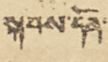སྐབས་དོན་
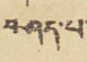བཤད་པ་
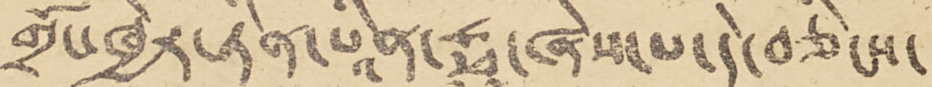གྲོང་ཁྱེར་ཏིན་པཱིན་ཧྥུ་ཞེས་པ་དེ་བཅིངས་
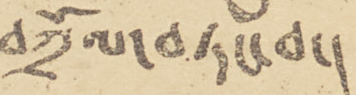བཀྲོལ་བཏང་བ་།
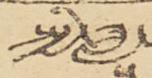སྤྱི་ཟླ་
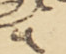༥
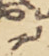༧
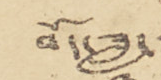བོད་ཟླ་
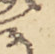༣
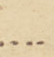་་་་
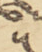༥
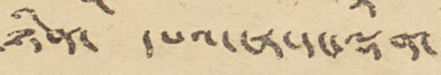ཉིན་ དཔའ་ངར་དང་ལྡན་
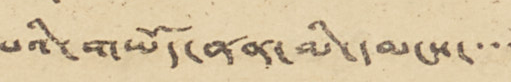པའི་གཡོད་ནན་མི་དམངས་་་་
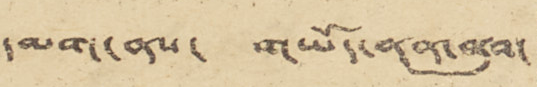དམག་ནས་ གཡོད་ནན་ནུབ་
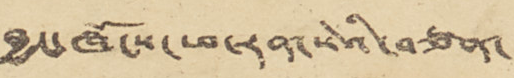བྱང་ཁོངས་ཕ་རན་སེའི་བཙན་
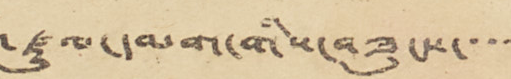འཛུལ་དམག་གིས་བཟུངས་་་་
